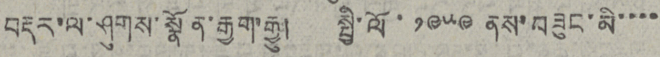བརྡར་ལ་ཤུགས་སྣོན་རྒྱག་རྒྱུ། སྤྱི་ལོ་ ༡༩༥༩ ནས་བཟུང་མི་་་་་
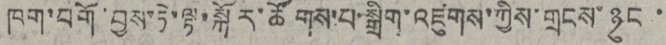ཁག་བགོ་བྱས་ཏེ་ལྟ་སྐོར་ཚོགས་པ་སྒྲིག་འཛུགས་ཀྱིས་གྲངས་ཉུང་
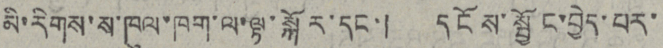མི་རིགས་ས་ཁུལ་ཁག་ལ་ལྟ་སྐོར་དང་། དངོས་སྦྱོང་བྱེད་པར་་
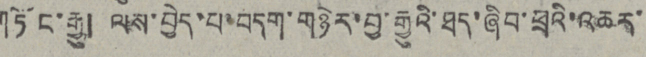ཏོང་རྒྱུ། ལས་བྱེད་པ་བདག་གཉེར་བྱ་རྒྱུའི་ཐད་ཞིབ་ཕྲའི་འཆར་
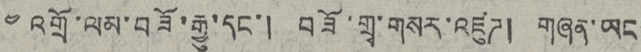༤ འགྲོ་ལམ་བཟོ་རྒྱུ་དང་། བཟོ་གྲྭ་གསར་འཛུཊ། གཞན་ཡང
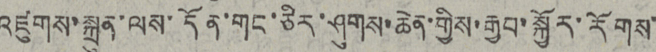འཛུགས་སྐྲུན་ལས་དོན་གང་ཅིར་ཤུགས་ཆེན་གྱིས་རྒྱབ་སྐྱོར་རོགས་
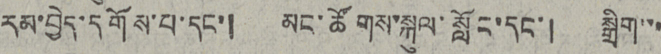རམ་བྱེད་དགོས་པ་དང་། མང་ཚོགས་སྐུལ་སློང་དང་། སྒྲིག་་་
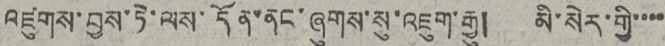འཛུགས་བྱས་ཏེ་ལས་དོན་ནང་ཞུགས་སུ་འཇུག་རྒྱུ།  མི་སེར་གྱི་་་་
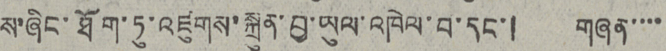ས་ཞིང་ཐོག་ཏུ་འཛུགས་སྐྲུན་བྱ་ཡུལ་འཁེལ་བ་དང་། གཞན་་་་་
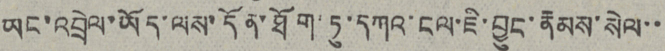ཡང་འབྲེལ་ཡོད་ལས་དོན་ཐོག་ཏུ་དཀའ་ངལ་ཇི་བྱུང་རྣམས་སེལ་་་
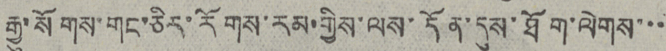རྒྱུ་སོགས་གང་ཅིར་རོགས་རམ་གྱིས་ལས་དོན་དུས་ཐོག་ལེགས་་་་
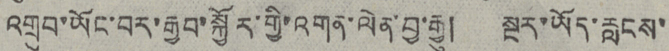འགྲུབ་ཡོང་བར་རྒྱབ་སྐྱོར་གྱི་འགན་ལེན་བྱ་རྒྱུ། སྔར་ཡོད་རླངས་
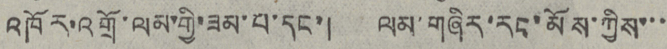འཁོར་འགྲོ་ལམ་གྱི་ཟམ་པ་དང་། ལམ་གཞིར་རང་མོས་ཀྱིས་་་་
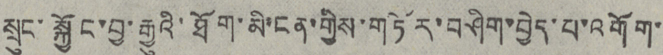སྲུང་སྐྱོང་བྱ་རྒྱུའི་ཐོག་མི་ངན་གྱིས་གཏོར་བཤིག་བྱེད་པ་འགོག་
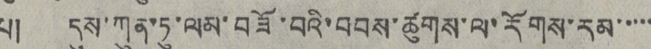པ། དུས་ཀུན་ཏུ་ལམ་བཟོ་བའི་བབས་ཚུགས་ལ་རོགས་རམ་་་་་
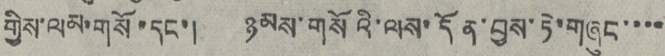གྱིས་ལམ་གསོ་དང་། ཉམས་གསོའི་ལས་དོན་བྱས་ཏེ་གཞུང་་་་
